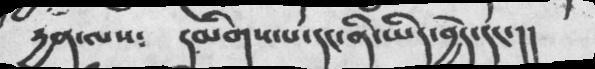དྱན་ལས༴   དམིགས་པ་དང་ནི་ཡིད་བྱེད་དང་།།
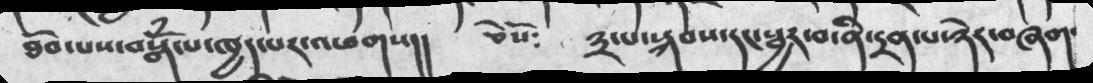ཐོབ་པས་བསྒོཾ་པ་ཁྱད་པར་འཕགས།།  ཅེསོ༴  ༣་པ་སྐབས་དང་སྦྱར་བ་ནི་དྲན་པ་ཉེར་བཞག་
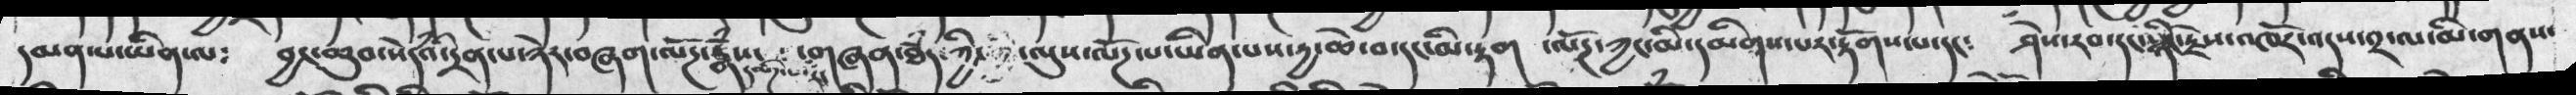དམན་པ་ཡིན་ལ༴  བྱང་ཆུབ་སེཾདའ་དྲིན་པ་ཉེར་བཞག་ལོཌ་རྣཾས་དམིཌ་པ་རང་གཞན་ཐཾད་ཀྱི་ལུས་ལོཌ་པ་ཡིན་པས་དྱ་ཆེ་བ་དང་མི་རྟག  ་ལོཌ་ཀྱང་མི་དམིགས་པར་རྟོགས་པ་དང༴  ཤེས་རབ་དང་སྙིང་རྗེས་འཁོར་འདས་༢་ལ་མ་གནས་
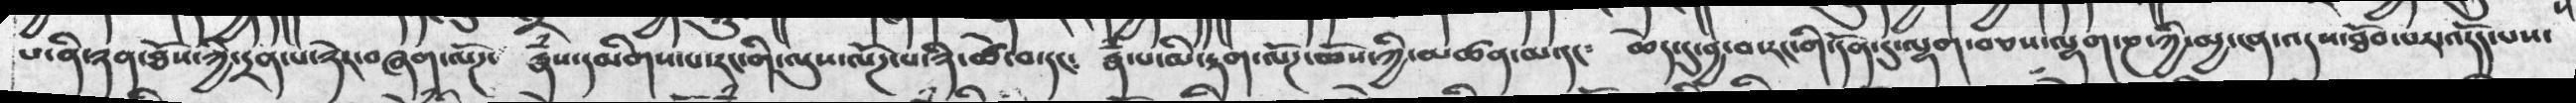པ་ནི་ཉན་ཐོས་ཀྱི་དྲན་པ་ཉེར་བཞག་ལོཌ་  རྣཾས་དམིགས་པ་རང་གི་ལུས་ལོཌ་པ་ཉེ་ཚེ་བ་དང༴  རྣཾ་པ་མི་རྟག་ལོཌ་ཆོས་ཀྱི་མཚན་མ་དང༴  ཆེད་དུ་བྱ་བ་རང་གི་དོན་དུ་ལྷག་བཅས་ལྷག་ཎ་ཀྱི་མྱ་ངན་འདས་ཐོབ་པར་འདོད་པས་
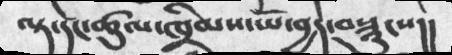ལྟ་དང་ཚུལ་ཁྲིམས་ཡོ་བྱད་བསྙུངས།།
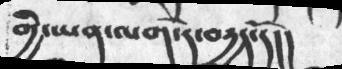གྱི་ཡན་ལག་དེ་བདྱད་དོ།།
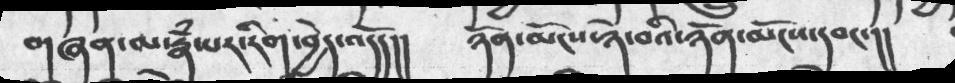གཞན་ལ་རྣཾ་པར་རིག་བྱེད་འདོད།།   ཉོན་མོངས་ཉེ་བའི་ཉོན་མོངས་དབང་།།
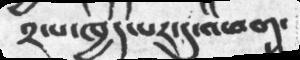༢་པ་ཕྱད་པར་དུ་འཕག་
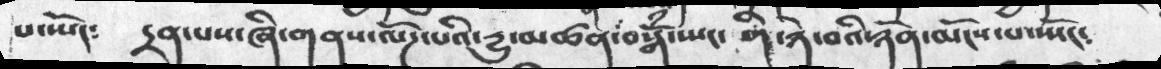པ་སྤོང༴  དྲན་པས་ཞི་གནས་ལོཌ་པའི་དྱུ་མཚན་བསྒོཾ་སྤང་གི་ཉེ་བའི་ཉོན་མོངས་པ་སྤོང༴
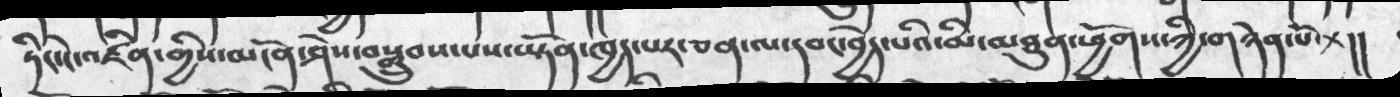ཏིང་ངེ་འཛིན་གྱིས་མངོན་ཤེས་བསྒྲུབས་པས་ཡྟོན་ཁྱད་པར་ཅན་ལ་དབང་བྱེད་པའི་མི་མཐུན་ཕྱོགས་ཀྱི་གཉེན་པོ་+།།
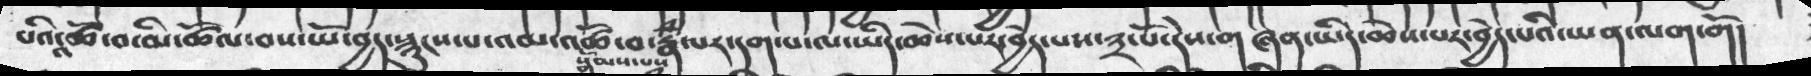པའི་འཚོ་བ་མི་ཚོལ་བས་ཡོད་བྱད་སྙུངས་པ་འམ་འཚོ་བ་སྒོམས་པས་རྣཾ་པར་དག་པ་ལ་ཡིད་ཆེས་པར་བྱེད་པས་༣་པོ་དེས་གཞན་ཡིད་ཆེས་པར་བྱེད་པའི་ཡན་ལག་གོ།
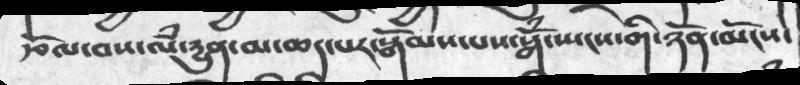རྩོལ་བས་ལཾ་དྱུན་མ་ཆད་པར་སྒོམས་པས་སྒོཾ་སྤངས་གི་ཉོན་མོངས་
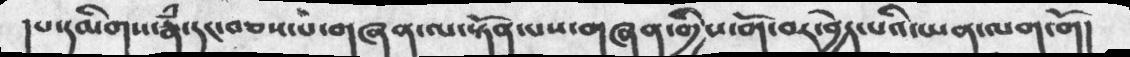།པ་དམིགས་རྣཾ་དང་བཅས་པ་གཞན་ལ་སྟོན་པས་གཞན་གྱིས་གོ་བར་བྱེད་པའི་ཡན་ལག་གོ།
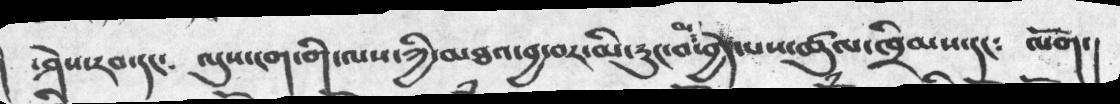་ཤེས་རབ་དང༴  ལུས་ངག་གི་ལས་ཀྱི་མཐའ་བྱ་བར་མི་རུང་བ་མ་བྱེད་པས་ཚུལ་ཁྲིམས་དང༴  ལོག་།
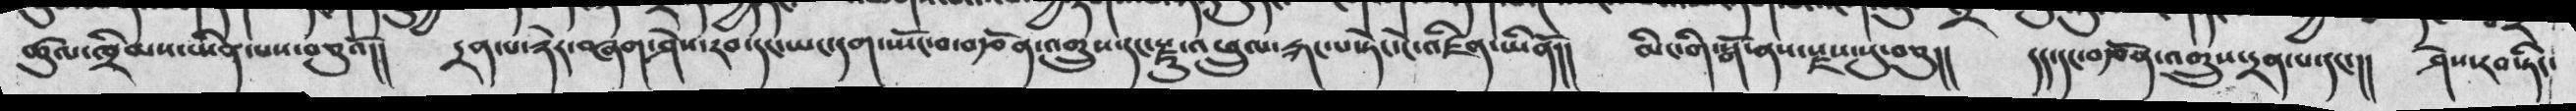ཚུལ་ཁྲིམས་ཡིན་པས་བཅུའོ།། དྲན་པ་ཉེར་བཞག་ཤེས་རབ་དང་ཡང་དག་སྤོང་བ་བརྩོན་འགྲུས་དང་རྫུ་འཕྲུལ་རྐང་པ་ཏིང་ངེ་འཛིན་ཡིནོ།།  མི་གི་སྒོ་ནས་རྫས་སུ་བཅུ།། དད་དང་བརྩོན་འགྲུས་དྲན་པ་དང་།།  ཤེས་རབ་ཏིང་
